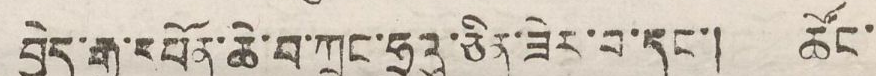བྱེད་རྒྱ་དཔོན་ཆེ་བ་ཀྲུང་ཧྲུའུ་ཅིན་ཟེར་བ་དང་། ཚོང་
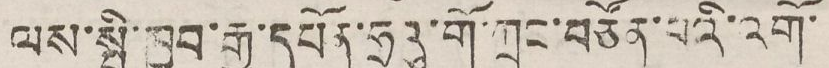ལས་སྤྱི་ཁྱབ་རྒྱ་དཔོན་ཧྲུའུ་གོ་ཀྲང་བཙོན་པའི་འགོ་
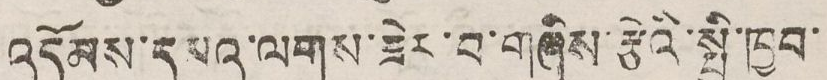འདོམས་དམའ་ལགས་ཟེར་བ་གཞིས་རྩེའི་སྤྱི་ཁྱབ་
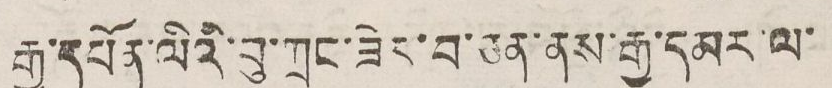རྒྱ་དཔོན་ལིའི་བུ་ཀྲང་ཟེར་བ་ཅན་ནས་རྒྱ་དམར་ལ་
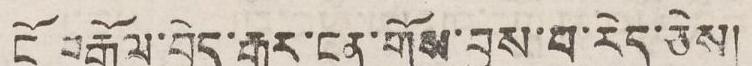ངོ བརྒོལ་བྱེད་རྒྱུར་ངན་གྲོས་བྱས་པ་རེད་ཅེས།
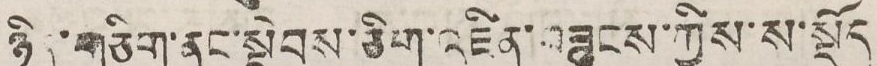ཉིན་གཅིག་ནང་སྡེབས་ཅིག་འཛིན་བཟུངས་ཀྱིས་ས་སྡོད
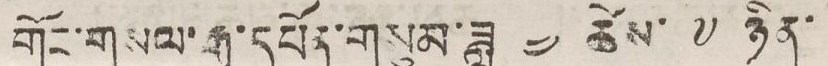གོང་གསལ་རྒྱ་དཔོན་གསུམ་ཟླ་ ༤ ཚེས་ ༧ ཉིན་
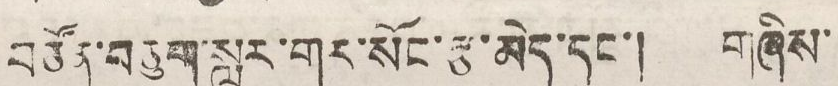བཙོན་བཅུག་སླར་གར་སོང་རྩ་མེད་དང་། གཞིས་
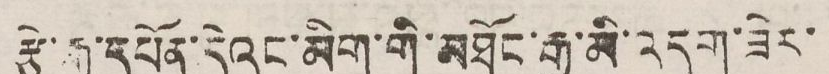རྩེ་རྒྱ་དཔོན་དེའང་མིག་གི་མཐོང་རྒྱུ་མི་འདུག་ཟེར་
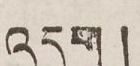འདུག།
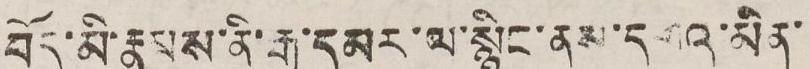བོད་མི་རྣམས་ནི་རྒྱ་དམར་ལ་སྙིང་ནས་དགའ་མིན་
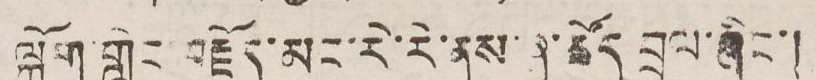ལྐོག་གླིང བརྗོད་མང་རེརེ་ནས་ཞུ་ཚོད བྲལ་ཞིང་།
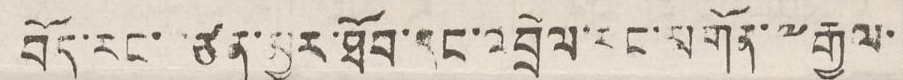བོད་རང་བཙན་མྱུར་ཐོབ་དང་འབྲེལ་རང་མགོན་༸རྒྱལ་
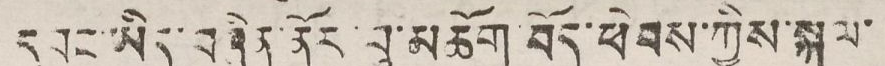དབང་མིན་བཞིན་ནོར་བུ་མཆོག་བོད་ཕེབས་ཀྱིས་སྐལ་
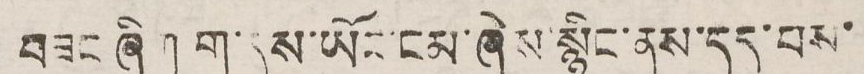བཟང ཞིག ག་དུས་ཡོང་ངམ་ཞེས་སྙིང་ནས་དད་པས་
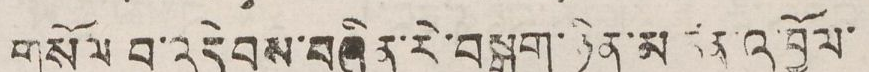གསོལ བ་འདེབས་བཞིན་རེ་བསྒུག་ཉིན་མཚན་འབྱོལ་
